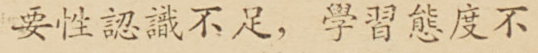要性認識不足，學習態度不
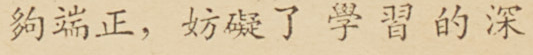夠端正，妨礙了學習的深
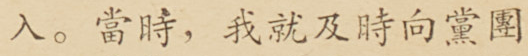入。黨史，我就及時向黨團
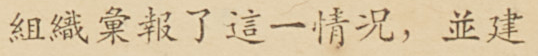組織彙報了這一情況，並建
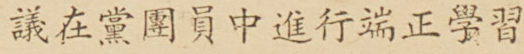議在黨團員中進行端正學習
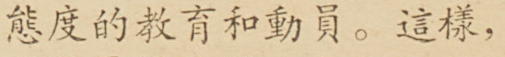態度的教育和動員。這樣，
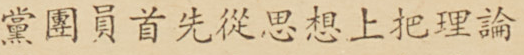黨團員首先從思想上把理論
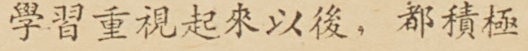學習重視起來以後，都積極
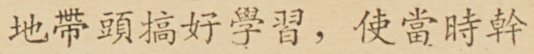地帶頭搞好學習，使當時幹
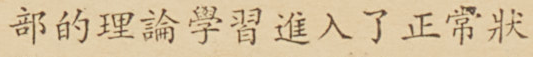部的理論學習進入了正常狀
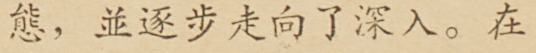態，並逐步走向了深入。在
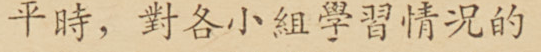平時，對各小組學習情況的
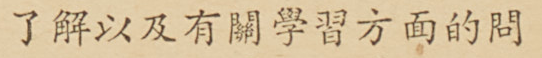了解以及有關學習方面的問
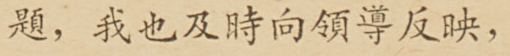題，我也及時向領導反映，
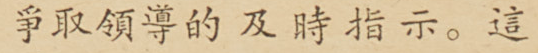爭取領導的及時指示。這
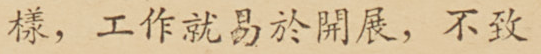樣，工作就易於開展，不致
